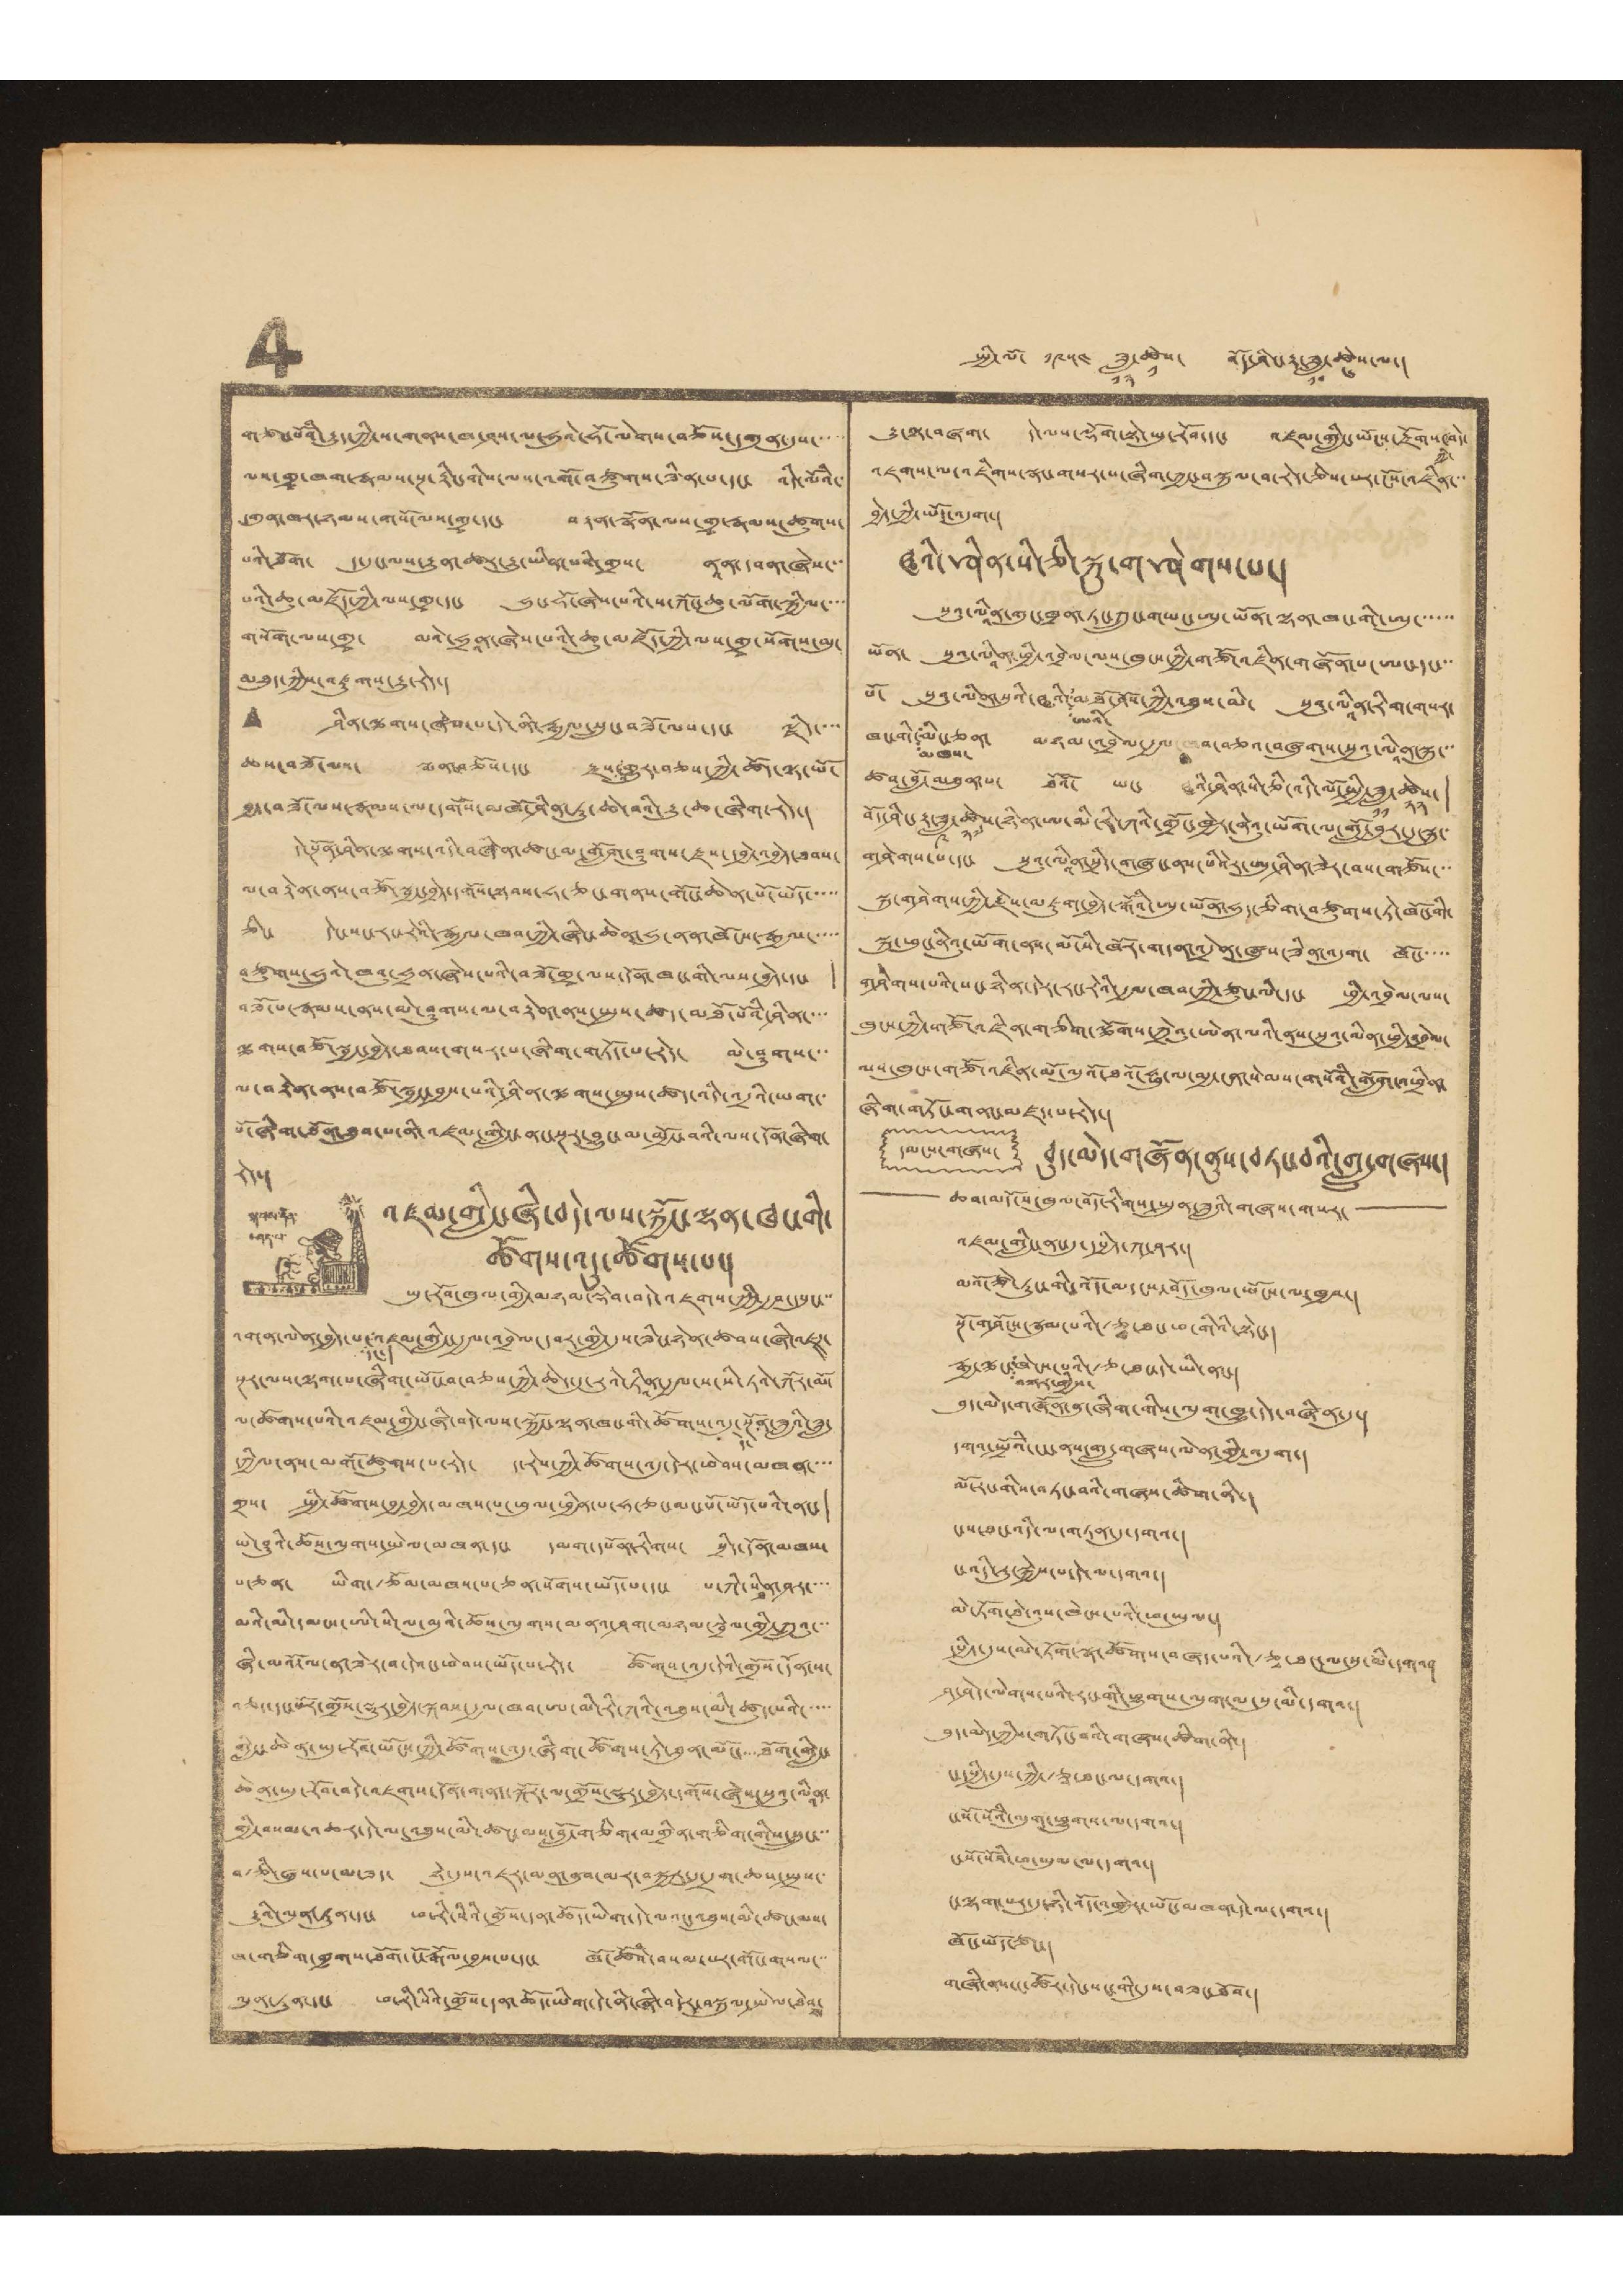4 སྤྱི་ལོ་ ༡༩༥༤་ཟླ་
༡༢
ཚེས་
༡
བོད་ཤིང་རྟ་ཟླ་
༡༠
ཚེས་
༦
ལ་།
གཙང་པོའི་རྒྱུད་ཀྱི་ས་གནས་ཁ་ཤས་ལ་ཧུའེ་ཧོ་ལེགས་བཅོས་དགུན་དུས་་་་་
ལས་གྲྭ་ཁག་རྣམས་སྔ་རྟིང་གིས་ལས་འགོ་བཙུགས་ཟིན་པ་དང་ འདི་ལོའི་
དགུན་ཁར་ཉམས་གསོ་ལས་གྲྭ་དང་ བརྟན་སྣོན་ལས་གྲྭ་རྣམས་ཚུགས་
པའི་ཐོག་ ད་དུང་ལས་རྒྱུན་ཚར་རྒྱུ་ཡིན་པའི་གྲས་ ནཱན་བན་ཞེས་་་
པའི་ཆུ་མཛོད་ཀྱི་ལས་གྲྭ་དང་ ཧུང་ཧོ་ཞེས་པའི་ས་ཀོང་ཆུ་ལོག་སྐྱིལ་་་་
གསོག་ལས་གྲྭ་ མའེ་ཧྲནཱ་ཞེས་པའི་ཆུ་མཛོད་ཀྱི་ལས་གྲྭ་སོགས་མུ་
མཐུད་ཀྱིས་འཛུགས་རྒྱུ་རེད་།
• ཤིན་ལྕགས་ཞེས་པ་དེ་ནི་རྒྱལ་སྲུང་བཟོ་ལས་དང་ ལྗིད་་་་
ཆས་བཟོ་ལས་ སྨན་བཅོས་དང་ རྫས་འགྱུར་བཅས་ཀྱི་ཚོད་ལྟ་ཡོ་
བྱད་བཟོ་ལས་རྣམས་ལ་དགོས་མཁོ་ཤིན་ཏུ་ཆེ་བའི་རྒྱུ་ཆ་ཞིག་རེད་།
དེ་སྔོན་ཤིན་ལྕགས་འདི་བཞིན་ཚང་མ་གློག་ཤུགས་རྫས་དབྱེ་འབྱེད་ཐབས་
མ་བརྟེན་ནས་བཙོ་སྦྱང་བྱེད་དགོས་སྟབས་ཧ་ཅང་གནས་གོང་ཆེན་པོ་ཡོད་་་་་
ཅིང་ དེང་སང་རང་རེའི་རྒྱལ་ཁབ་ཀྱི་ཞིང་ཆེན་ཧུ་ནན་ཁོངས་རྒྱལ་་་་་
བཙུགས་ཧྲུའེ་ཁའུ་ཧྲན་ཞེས་པའི་བཟོ་གྲྭ་ལས་དོན་ཁང་གི་ལས་བྱེད་དང་ །
བཟོ་པ་རྣམས་ནས་མེ་ཤུགས་ལ་བརྟེན་ནས་སྤུས་ཚད་མཐོ་པོའི་ཤིན་་་་
ལྕགས་གཙོ་སྦྱང་བྱེད་ཐབས་གསར་པ་ཞིག་གཏོད་པ་རེད་ མེ་ཤུགས་་་
ལ་བརྟེན་ནས་བཙོ་སྦྱང་བྱས་པའི་ཤིན་ལྕགས་སྤུས་ཚད་འདི་འདྲའི་ཡག་་
པོ་ཞིག་ཐོན་ཐུབ་པ་ནི་འཛམ་གླིང་ནང་སྔར་བྱུང་མ་མྱོང་བའི་ལས་དོན་ཞིག་
རེད་།
སྐབས་དོན་
བཤད་པ་
འཛམ་གླིང་ཞི་བདེ་ལས་སྐྱོང་ལྷན་ཁང་གི་
ཚོགས་འདུ་ཚོགས་པ་།
ཡུ་རོབ་ཁུལ་གྱི་མཉམ་ལྡེབ་བདེ་འཇགས་ཀྱི་རྒྱབ་དཔུང་་་
འགན་ལེན་བྱེད་པ་
དང་།
འཛམ་གླིང་རྒྱལ་འབྲེལ་དབར་གྱི་དུས་ཟིང་ཉེན་ཚབས་ཞིང་འཇཊ་
སྔར་ལས་ལྷག་པ་ཞིག་ཡོང་བ་བཅས་ཀྱི་ཆེད་དུ་རུའེ་ཏཱིན་རྒྱལ་ས་སི་ཏའེ་ཀོར་མོ་
ལ་ཚོགས་པའི་འཛམ་གླིང་ཞི་བདེ་ལས་སྐྱོང་ལྷན་ཁང་གི་ཚོགས་འདུ་
དེ་
སྔོན་ཟླའི་ཟླ་
དཀྱིལ་ནས་མགོ་ཚུགས་པ་རེད་ ད་རེས་ཀྱི་ཚོགས་འདུ་དེར་ཕེབས་མཁན་་་་
གྲས་ སྤྱི་ཚོགས་བྱ་བྱེད་མཁས་པ་ཕུལ་ཕྱིན་པ་ཧ་ཅང་མང་པོ་ཡོད་པའི་ནང་ །
ཡེ་ཤུའི་ཆོས་ལུགས་སྤེལ་མཁན་དང་ དམག་དཔོན་རིགས་ སྲིད་དོན་མཁས་
པ་ཅན་ ཡིག་རྩོམ་མཁས་པ་ཅན་སོགས་ཡོད་པ་དང་ པ་ཀི་སིནྠ་ཤར་་་་
མའི་མི་དམངས་ཨི་སི་ལ་མུའི་ཆོས་ལུགས་མནའ་ཤག་མཉམ་སྦྲེལ་གྱི་ཀྲུའུ་་་
ཞི་མའོ་ལ་ན་ཟེར་བ་དེའང་ཕེབས་ཡོད་པ་རེད་ ཚོགས་འདུ་དེའི་གྲོས་དོན་ས་
ཆ་དང་པོར་གྲོས་སྡུར་བྱེད་སྐབས་རྒྱལ་ཁབ་ཨ་མི་རི་ཀའི་འཐུས་མི་ཚུད་པའི་་་་་
གླིང་ཆེན་ཡུ་རོབ་ཡོངས་ཀྱི་ཚོགས་འདུ་ཞིག་ཚོགས་ཏེ་ཐུན་མོང་་་་ཐོག་གླིང་
ཆེན་ཡུ་རོབ་བདེ་འཇགས་དོན་གནད་སྐོར་ལ་གྲོས་སྡུར་བྱེད་དགོས་ཞེས་སུའུ་ལཱིན་
གྱི་བསམ་འཆར་དེ་ལ་འཐུས་མི་ཚང་མས་བློ་གཅིག་མགྲིན་གཅིག་གིས་སྲུང་་་
བརྩི་ཞུས་པ་མ་ཟད་ ཉེ་དུས་འཇར་མན་ནུབ་མར་བསྐྱར་དུ་དྲག་ཆས་སྤྲས་
རྒྱུའི་ལུན་ཏུན་དང་ ཕ་རི་སིའི་གྲོས་དན་ཆོད་ཡིག་དེ་ལའང་འཐུས་མི་ཚང་མས་
ཁ་གཅིག་གྱགས་ཐོག་ངོ་རྒོལ་བྱས་པ་དང་ ཁོ་ཚོའི་བསམ་པར་གོང་གསལ་་་
ལུན་ཏུན་དང་ ཕ་རི་སིའི་གྲོས་དན་ཆོད་ཡིག་དེ་ནི་ཞི་བདེར་བསྐུལ་སྤེལ་ཐེབས་
རྒྱུ་ལྟ་བཞག་ དེ་ལས་ལྡོག་སྟེ་ཡུ་རོབ་དང་ འཛམ་གླིང་ཡོངས་རྫོགས་
ཀྱི་
བདེ་
འཇགས་ལ་འཇིགས་སྣང་གསར་པ་ཞིག་ཀྱང་བསྐུལ་བ་རེད་ཅེས་པར་ངོས་འཛིན་་་
བྱེད་ཀྱི་ཡོད་འདུག་།
ཝའི་ཤིན་སི་ཅི་སྐུ་གཤེགས་པ་།
sཨུའུ་ལཱིན་གུང་ཁྲན་ཏང་ཀྲུང་གཡང་ཨུ་ཡོན་ལྷན་ཁང་གི་ཨུ་་་་་་
ཡོན་ སུའུ་ལཱིན་ཕྱི་འབྲེལ་ལས་ཁུངས་ཀྱི་གཙོང་འཛིན་གཞོན་པ་ཨང་དང་་་
པོ་ སུའུ་ལིན་སུའི་ཝའི་
ཨའི་
མཐོ་ཤོས་ཀྱི་འཐུས་མི་ སུའུ་ལཱིན་རིག་གསར་
ཁང་གི་
མཁས་
མི་ཅན་ མཉམ་འབྲེལ་རྒྱལ་ཁབ་བཅའ་བཞུགས་སུའུ་ལཱིན་སྐུ་་་
ཚབ་བློ་མཐུན་པ་ ཐོའོ་ ཡང་ ཝའི་ཤིན་སི་ཅི་འདི་ལོ་སྤྱི་ཟླ་
༡༡
ཚེས་
༢༢
།
བོད་ཤིང་རྟ་ཟླ་
༩
ཚེས་
༢༧
ཉིན་ཨ་མི་རི་ཀའི་གྲོང་ཁྱེར་ནེའུ་ཡོག་ལ་གློ་བུར་དུ་སྐུ་
གཤེགས་པ་དང་ སུའུ་ལཱིན་སྲིད་གཞུང་ནས་ཕིའེར་ཨུ་ཤིན་ཟེར་བས་གཙོས་་་
སྐུ་གཤེགས་ཀྱི་རྗེས་མཇུག་བྱེད་སྒོའི་ཨུ་ཡོན་ཧུད་ཅིག་བཙུགས་ཏེ་ཁོང་གི་
སྐུ་ཕུང་ནིའུ་ཡོག་ནས་མོ་སི་ཁོར་གདན་འདྲེན་ཞུས་ཟིན་འདུག་ ཁོང་་་་་
གཤེགས་པའི་སང་ཉིན་དེར་རང་རེའི་རྒྱལ་ཁབ་ཀྱི་ཙུང་ལི་དང་ ཕྱི་འབྲེལ་ལས་
ཁུངས་ཀྱི་གཙོ་འཛིན་གཅིག་ལྕོགས་ཀྲེའུ་ཨེན་ལའི་ནས་སུའུ་མིན་ཕྱི་འབྲེལ་
ལས་ཁུངས་གཙོ་འཛིན་མོ་ལུའོ་ཐའོ་ཧྥུ་ལ་མྱ་ངན་སེམས་གསོའི་གློག་འཕྲིན་
ཞིག་གཏོང་གནང་མཛད་པ་རེད་།
དམངས་གཞས་
བུད་མེད་གཞོན་ནུས་བཏང་བའི་གླུ་གཞས་།
ཆབ་མདོ་ས་ཁུལ་བོད་རིགས་སྤུན་ཟླའི་གཞས་གསར་
འཛམ་གླིང་ནང་དུ་དཔྱིད་ཀ་ཤར་།
མའོ་ཙེ་ཏུང་གི་འོད་མདངས་བོད་ཁུལ་ཡོངས་ལ་ཁྱབ་།
སྔོ་གཤོངས་སྣུམ་པའི་རྩྭ་ཐང་ཕ་གིའི་སྟེང་།
རྒྱ་ལྕང་
བསྟར་གྱིས་
ཁེངས་པའི་རྩ་ཐང་དེ་ཡི་ནང་།
བུད་མེད་གཞོན་ནུ་ཞིག་གིས་ལུག་ཁྱུ་དེད་བཞིན་དུ་།
དགའ་སྤྲོའི་ངང་ནས་གླུ་གཞས་ལེན་གྱི་འདུག་།
མོ་རང་གིས་བཏང་བའི་གཞས་ཚིག་ནི་།
ང་ས་ཐང་འདི་ལ་གཏན་དུ་དགའ་།
ང་འདི་རུ་སྐྱེས་པ་དེ་ལ་དགའ་།
མེ་ཏོག་ཐེ་འུས་ཁེངས་པའི་ཕ་ཡུལ་།
དཔྱིད་དུས་མེ་ཏོག་སྣ་ཚོགས་བཞད་པའི་རྩྭ་ཐང་ལ་སུ་མི་དགའ་།
ཤ་ཤེད་ལེགས་པའི་རང་གི་ཕྱུགས་ལུག་ལ་སུ་མི་དགའ་།
བུད་མེད་ཀྱིས་གཏོང་བའི་གཞས་ཚིག་ནི་།
ང་དཔྱིད་དུས་ཀྱི་རྩྭ་ཐང་ལ་དགའ་།
ང་སོ་སོའི་ལུག་ཕྱུགས་ལ་དགའ་།
ང་སོ་སོའི་ཕ་ཡུལ་ལ་དགའ་།
ང་ལྷག་པར་དུ་ཉི་འོད་འཁྱེར་ཡོང་མཁན་དེ་ལ་དགའ་།
ཁོང་ཡོད་ཙང་།
གཞི་ནས་ང་ཚོར་དེང་སང་གི་དུས་བཟང་ཐོབ་།
